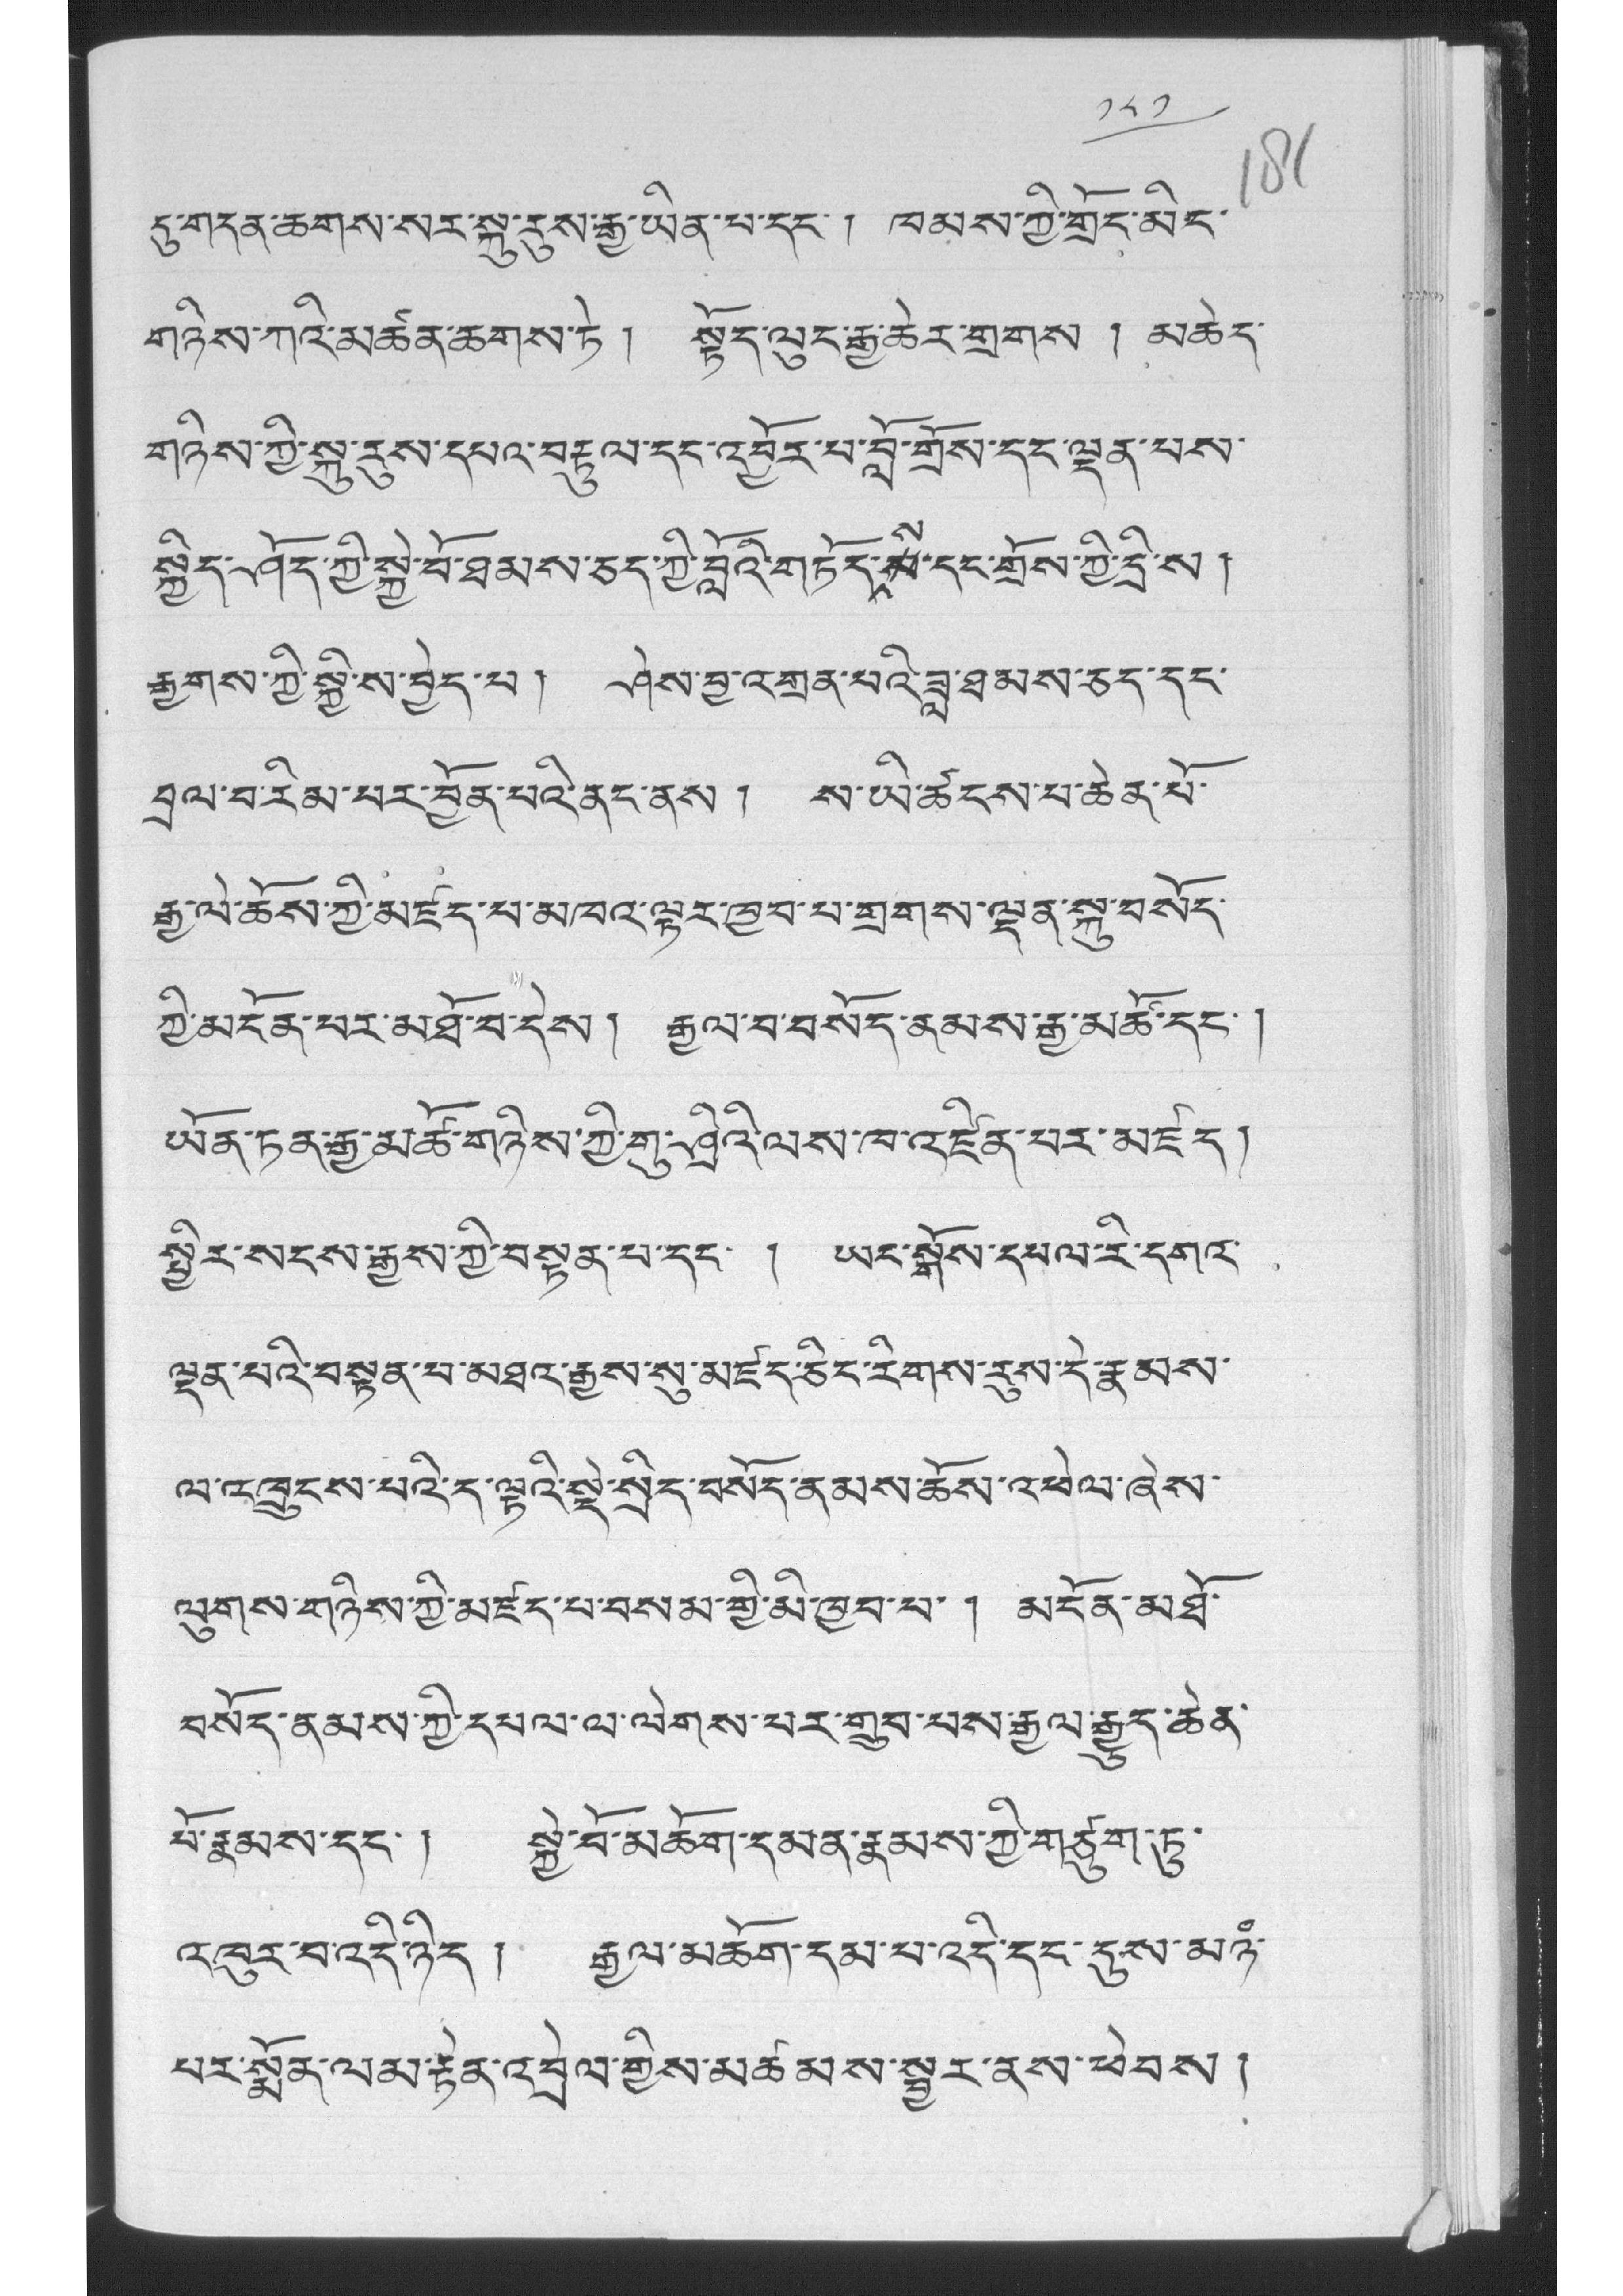༡༨༡
དུ་གདན་ཆགས་སར་སྐུ་རུས་རྒྱ་ཡིན་པ་དང་ ། ཁམས་ཀྱི་གྲོང་མིང་
གཉིས་ཀའི་མཚན་ཆགས་ཏེ ། སྟོད་ལུང་རྒྱ་ཆེར་གྲགས ། མཆེད་
གཉིས་ཀྱི་སྐུ་རུས་དཔའ་བརྟུལ་དང་འབྱོར་པ་བློ་གྲོས་དང་ལྡན་པས་
སྐྱིད་ཤོད་ཀྱི་སྐྱེ་བོ་ཐམས་ཅད་ཀྱི་བློའི་གཏོད་སས་དང་གྲོས་ཀྱི་དྲི་ས །
རྒྱགས་ཀྱི་སྐྱི་ས་བྱེད་པ། ཤེས་བྱ་འགྲན་པའི་ཟླ་ཐམས་ཅད་དང་
བྲལ་བ་རིམ་པར་བྱོན་པའི་ནང་ནས ། ས་ཡི་ཚངས་པ་ཆེན་པོ་
རྒྱ་ལེ་ཆོས་ཀྱི་མཛད་པ་མཁའ་ལྟར་ཁྱབ་པ་གྲགས་ལྡན་སྐུ་བསོད་
ཀྱི་མངོན་པར་མཐོ་བ་དེས། རྒྱལ་བ་བསོད་ནམས་རྒྱ་མཚོ་དང་ །
ཡོན་ཏན་རྒྱ་མཚོ་གཉིས་ཀྱི་གུ་ཤྲིའི་ལས་ཁ་འཛིན་པར་མཛད།
སྤྱིར་སངས་རྒྱས་ཀྱི་བསྟན་པ་དང་ ། ཡང་སྒོས་དཔལ་རི་དགའ་
ལྡན་པའི་བསྟན་པ་མཐའ་རྒྱས་སུ་མཛད་ཅིང་རིགས་རུས་དེ་རྣམས་
ལ་འཁྲུངས་པའི་ད་ལྟའི་སྡེ་སྲིད་བསོད་ནམས་ཆོས་འཕེལ་ཞེས་
ལུགས་གཉིས་ཀྱི་མཛད་པ་བསམ་གྱི་མི་ཁྱབ་པ་ ། མངོན་མཐོ་
བསོད་ནམས་ཀྱི་དཔལ་ལ་ལེགས་པར་གྲུབ་པས་རྒྱལ་རྒྱུད་ཆེན་
པོ་རྣམས་དང་། སྐྱེ་བོ་མཆོག་དམན་རྣམས་ཀྱི་གཙུག་ཏུ་
འཁུར་བ་འདི་ཉིད ། རྒྱལ་མཆོག་དམ་པ་འདི་དང་དུས་མཉཾ་
པར་སྨོན་ལམ་རྟེན་འབྲེལ་གྱིས་མཚམས་སྦྱར་ནས་ཕེབས།
